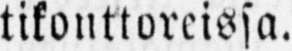tikonttoreissa.
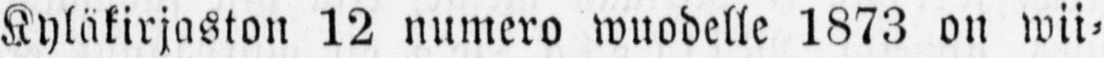Kyläkirjaston 12 numero wuodelle 1873 on wii-
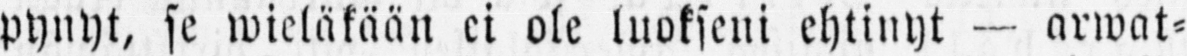pynyt, se wieläkään ci ole luokseni ehtinyt — arwat-
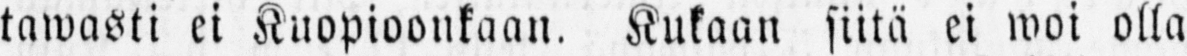tawasti ei Kuopioonkaan. Kukaan siitä ei woi olla
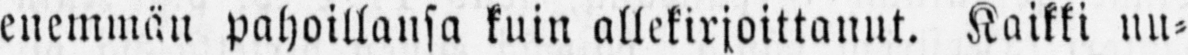enemmän pahoillansa kuin allekirjoittanut. Kaikki nu-
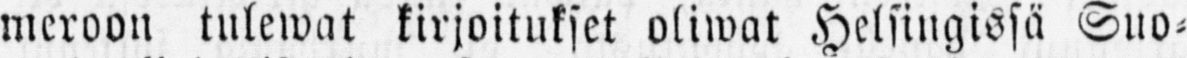meroon tulewat kirjoitukset oliwat Helsingissä Suo-
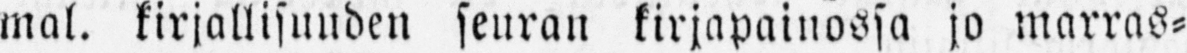mal. kirjallisuuden seuran kirjapainossa jo marras-
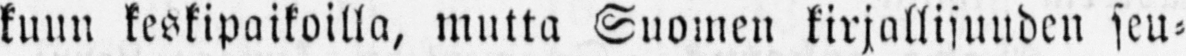kuun keskipaikoilla, mutta Suomen kirjallisuuden seu-
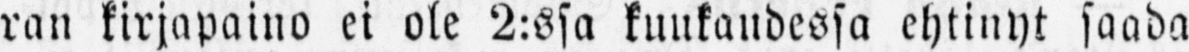ran kirjapaino ei ole 2:Ssa kuukaudessa ehtinyt saada
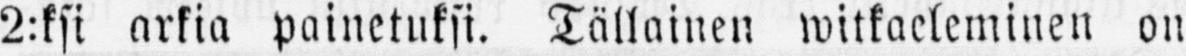2:ksi arkia painetuksi. Tällainen witkaeleminen on
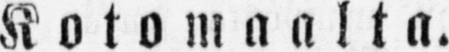Kotomaalta.
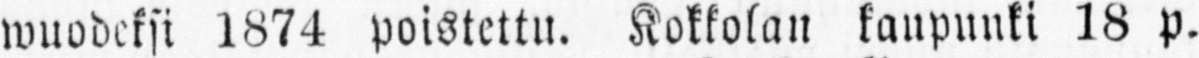wuodeksi 1874 poistettu. Kokkolan kaupunki 18 p.
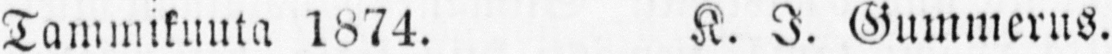Tammikuuta 1874. K. I. Gummerus.
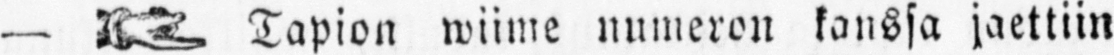— Tapion wiime numeron kanssa jaettiin
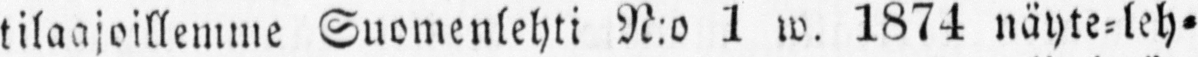tilaajoillemme Suomenlehti N:o 1 w. 1874 näyte-leh-
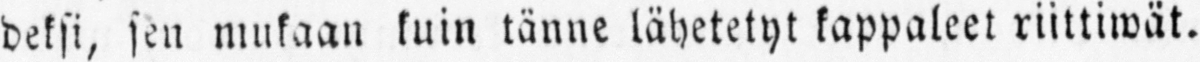deksi, sen mukaan kuin tänne lähetetyt kappaleet riittiwät.
